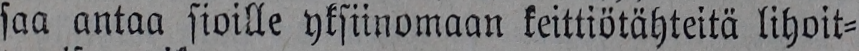saa antaa sioille yksiinomaan keittiötähteitä lihoit-
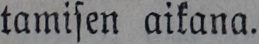tamisen aikana.
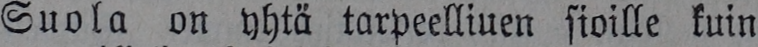Suola on yhtä tarpeelliuen sioille kuin
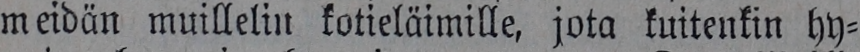meidän muillelin kotieläimille, jota kuitenkin hy-
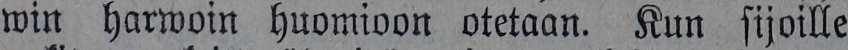win harwoin huomioon otetaan. Kun sijoille
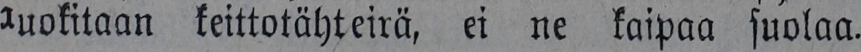auokitaan keittotähteirä, ei ne kaipaa suolaa.
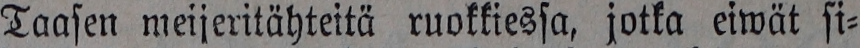Taasen meijeritähteitä ruokkiessa, jotka eiwät si-
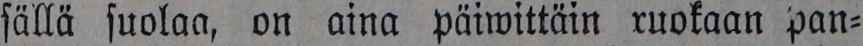sällä suolaa, on aina päiwittäin ruokaan pan-
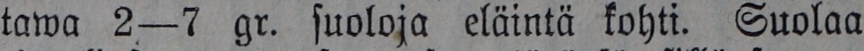tawa 2—7 gr. suoloja eläintä kohti. Suolaa
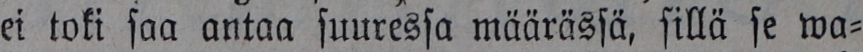ei toki saa antaa suuressa määrässä, sillä se wa-
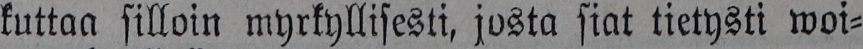kuttaa silloin myrkyllisesti, josta siat tietysti woi-
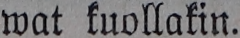wat kuollakin.
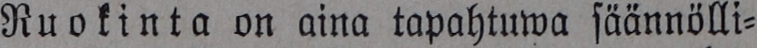Ruokinta on aina tapahtuwa säännölli-
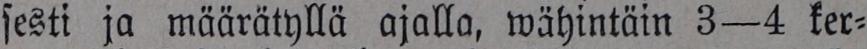sesti ja määrätyllä ajalla, wähintäin 3—4 ker-
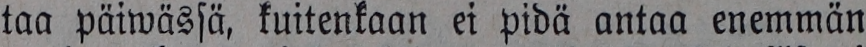taa päiwässä, kuitenkaan ei pidä antaa enemmän
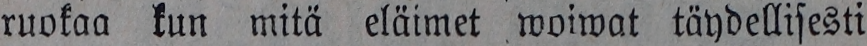ruokaa kun mitä eläimet woiwat täydellisesti
